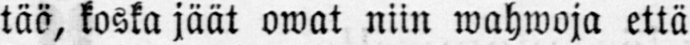tää, koska jäät owat niin wahwoja että
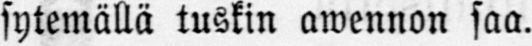sytemällä tuskin awennon saa.
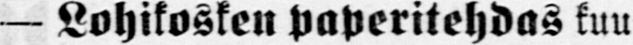— Lohikosken paperitehdas kuu-
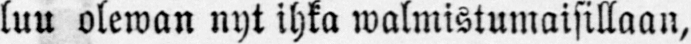luu olewan nyt ihka walmistumaisillaan,
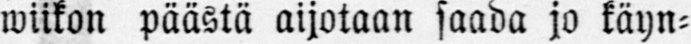wiikon päästä aijotaan saada jo käyn-
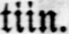tiin.
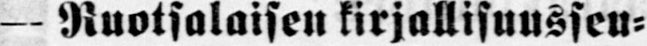- Ruotsalaisen kirjallisuusseu-
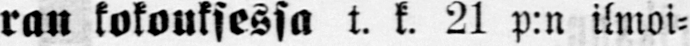ran kokouksessa t. k. 21 p:n ilmoi-
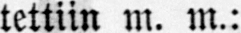tettiin m. m.:
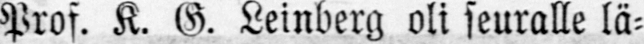Prof. K. G. Leinberg oli seuralle lä-
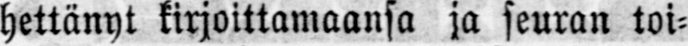hettänyt kirjoittamaansa ja seuran toi-
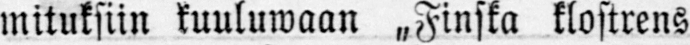mituksiin kuuluwaan „Finska klostrens
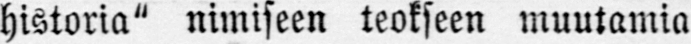historia" nimiseen teokseen muutamia
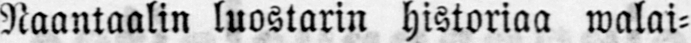Naantaalin luostarin historiaa walai-
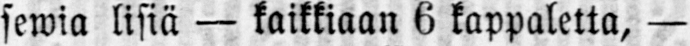sewia lisiä — kaikkiaan 6 kappaletta, —
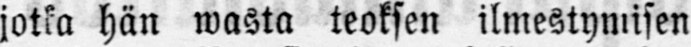jotka hän wasta teoksen ilmestymisen
